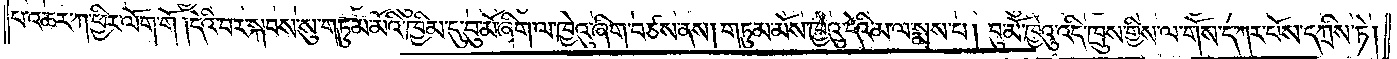པ་འཆར་ཀ་ཕྱིར་ལོག་གོ །དེའི་བར་སྐབས་སུ་གཏུམ་མོའི་ཁྱིམ་དུ་བུ་མོ་ཞིག་ལ་ཁྱེའུ་ཞིག་བཙས་ནས། གཏུམ་མོས་ཁྱེའུ་དེའི་མ་ལ་སྨྲས་པ། བུ་མོ་ཁྱེའུ་འདི་ཁྲུས་གྱིས་ལ་གོས་དཀར་པོས་དཀྲིས་ཏེ།
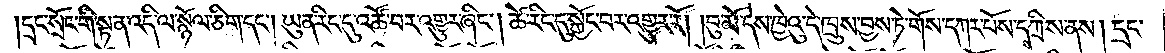དྲང་སྲོང་གི་སྟན་འདི་ལ་སྙོལ་ཅིག་དང༌། ཡུན་རིང་དུ་འཚོ་བར་འགྱུར་ཞིང༌། ཚེ་རིང་དུ་སྐྱོང་བར་འགྱུར་རོ། །བུ་མོ་དེས་ཁྱེའུ་དེ་ཁྲུས་བྱས་ཏེ་གོས་དཀར་པོས་དཀྲིས་ནས། དྲང་
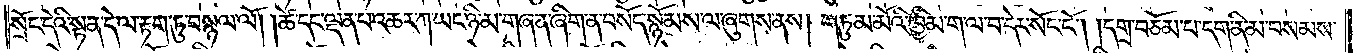སྲོང་དེའི་སྟན་དེ་ལ་རྟག་ཏུ་བསྙལ་ལོ། །ཚེ་དང་ལྡན་པ་འཆར་ཀ་ཡང་ཉི་མ་གཞན་ཞིག་ན་བསོད་སྙོམས་ལ་ཞུགས་ནས། གཏུམ་མོའི་ཁྱིམ་ག་ལ་བ་དེར་སོང་ངོ༌། །དགྲ་བཅོམ་པ་དག་ནི་མ་བསམས་
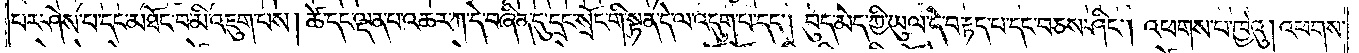པར་ཤེས་པ་དང་མཐོང་བ་མི་འཇུག་པས། ཚེ་དང་ལྡན་པ་འཆར་ཀ་དེ་བཞིན་དུ་དྲང་སྲོང་གི་སྟན་དེ་ལ་འདུག་པ་དང༌། བུད་མེད་ཀྱི་ཡུལ་དེ་བརྟད་པ་དང་བཅས་ཤིང༌། འཕགས་པ་ཁྱེའུ། འཕགས་
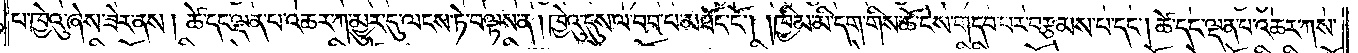པ་ཁྱེའུ་ཞེས་ཟེར་ནས། ཚེ་དང་ལྡན་པ་འཆར་ཀ་མྱུར་དུ་ལངས་ཏེ་བལྟས་ན། ཁྱེའུ་དུས་ལ་བབ་པ་མཐོང་ངོ༌། །ཁྱིམ་མི་དག་གིས་ཆོ་ངེས་གདབ་པར་བརྩམས་པ་དང༌། ཚེ་དང་ལྡན་པ་འཆར་ཀས་
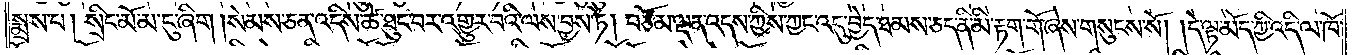སྨྲས་པ། སྲིང་མོ་མ་ངུ་ཞིག །སེམས་ཅན་འདིས་ཚེ་ཐུང་བར་འགྱུར་བའི་ལས་བྱས་ཏེ། བཅོམ་ལྡན་འདས་ཀྱིས་ཀྱང་འདུ་བྱེད་ཐམས་ཅད་ནི་མི་རྟག་གོ་ཞེས་གསུངས་སོ། །དེ་ལྟ་མོད་ཀྱི་འདི་ལ་ཁོ་
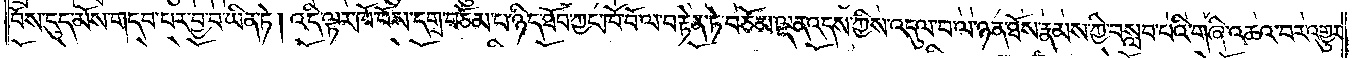བོས་ངུད་མོས་གདབ་པར་བྱ་བ་ཡིན་ཏེ། འདི་ལྟར་ཁོ་བོས་དགྲ་བཅོམ་པ་ཉིད་ཐོབ་ཀྱང་ཁོ་བོ་ལ་བརྟེན་ཏེ་བཅོམ་ལྡན་འདས་ཀྱིས་འདུལ་བ་ལ་ཉན་ཐོས་རྣམས་ཀྱི་བསླབ་པའི་གཞི་འཆའ་བར་འགྱུར་
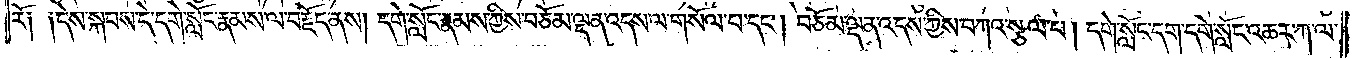རོ། །དེས་སྐབས་དེ་དགེ་སློང་རྣམས་ལ་བརྗོད་ནས། དགེ་སློང་རྣམས་ཀྱིས་བཅོམ་ལྡན་འདས་ལ་གསོལ་པ་དང༌། བཅོམ་ལྡན་འདས་ཀྱིས་བཀའ་སྩལ་པ། དགེ་སློང་དག་དགེ་སློང་འཆར་ཀ་ལ་
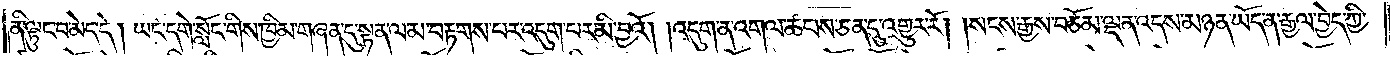ནི་ལྟུང་བ་མེད་དེ། ཡང་དགེ་སློང་གིས་ཁྱིམ་གཞན་དུ་སྟན་ལ་མ་བརྟགས་པར་འདུག་པར་མི་བྱའོ། །འདུག་ན་འགལ་ཚབས་ཅན་དུ་འགྱུར་རོ། །སངས་རྒྱས་བཅོམ་ལྡན་འདས་མཉན་ཡོད་ན་རྒྱལ་བྱེད་ཀྱི་
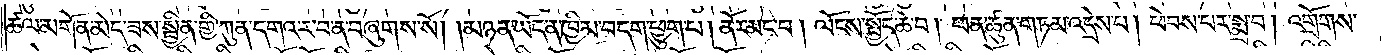ཚལ་མགོན་མེད་ཟས་སྦྱིན་གྱི་ཀུན་དགའ་ར་བ་ན་བཞུགས་སོ། །མཉན་ཡོད་ན་ཁྱིམ་བདག་ཕྱུག་པ། ནོར་མང་བ། ལོངས་སྤྱོད་ཆེ་བ། ཕན་ཚུན་གཏམ་འདྲེས་པ། ཕེབས་པར་སྨྲ་བ། འགྲོགས་
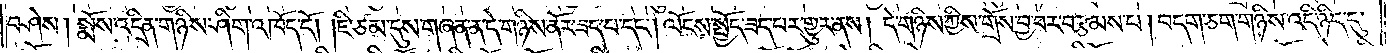བཤེས། སྨོས་འདྲིན་གཉིས་ཤིག་འཁོད་དོ། །ཇི་ཙམ་དུས་གཞན་ན་དེ་གཉིས་ནོར་ཟད་པ་དང༌། ལོངས་སྤྱོད་ཟད་པར་གྱུར་ནས། དེ་གཉིས་ཀྱིས་གྲོས་བྱ་བར་བརྩམས་པ། བདག་ཅག་གཉིས་འདི་ཉིད་དུ་
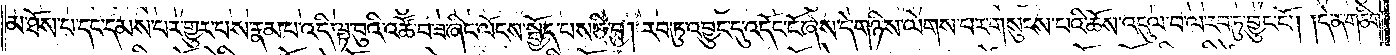མ་ཐོས་པ་དང་དམས་པར་གྱུར་པས་རྣམ་པ་འདི་ལྟ་བུའི་འཚོ་བ་ཟ་ཞིང་ལོངས་སྤྱོད་པས་ཅི་བྱ། རབ་ཏུ་འབྱུང་དུ་འདོང་ངོ་ཞེས་དེ་གཉིས་ལེགས་པར་གསུངས་པའི་ཆོས་འདུལ་བ་ལ་རབ་ཏུ་བྱུང་ངོ༌། །དེ་ན་གཅིག་
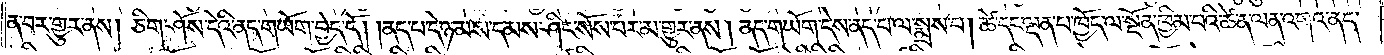ན་བར་གྱུར་ནས། ཅིག་ཤོས་དེའི་ནད་གཡོག་བྱེད་དོ། །ནད་པ་དེ་ཉམས་དམས་ཤིང་སོས་པར་མ་གྱུར་ནས། ནད་གཡོག་དེས་ནད་པ་ལ་སྨྲས་པ། ཚེ་དང་ལྡན་པ་ཁྱོད་ལ་སྔོན་ཁྱིམ་བའི་ཚེ་ན་ལན་འགའ་ནད་
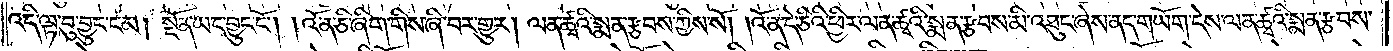འདི་ལྟ་བུ་བྱུང་ངམ། སྔོན་ཡང་བྱུང་ངོ༌། །འོ་ན་ཅི་ཞིག་གིས་ཞི་བར་གྱུར། ལན་ཚྭའི་སྨན་རྩབས་ཀྱིས་སོ། །འོ་ན་དེ་ཅིའི་ཕྱིར་ལན་ཚྭའི་སྨན་རྩབས་མི་འཐུང་ཞེས་ནད་གཡོག་དེས་ལན་ཚྭའི་སྨན་རྩབས་
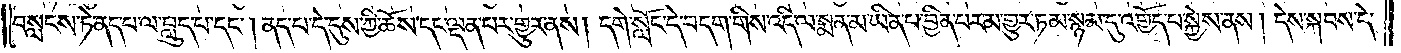བསླངས་ཏེ་ནད་པ་ལ་བླུད་པ་དང༌། ནད་པ་དེ་དུས་ཀྱི་ཆོས་དང་ལྡན་པར་གྱུར་ནས། དགེ་སློང་དེ་བདག་གིས་འདི་ལ་སྨན་པ་ཡིན་པ་བྱིན་པར་མ་གྱུར་ཏམ་སྙམ་དུ་འགྱོད་པ་སྐྱེས་ནས། དེས་སྐབས་དེ་
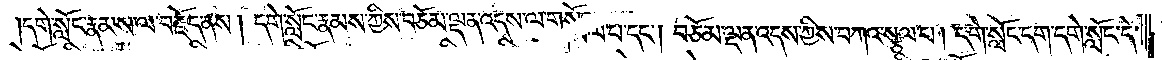དགེ་སློང་རྣམས་ལ་བརྗོད་ནས། དགེ་སློང་རྣམས་ཀྱིས་བཅོམ་ལྡན་འདས་ལ་གསོལ་པ་དང༌། བཅོམ་ལྡན་འདས་ཀྱིས་བཀའ་སྩལ་པ། དགེ་སློང་དག་དགེ་སློང་དེ་
